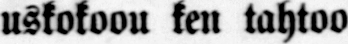uskokoou ken tahtoo
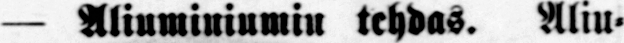— Aliumiuiumiu tehdas. Aliu-
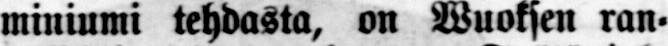miniumi tehdasta, on Wuoksen ran-
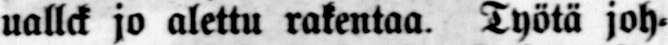uallck jo alettu rakentaa Työtä joh-
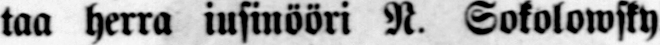taa herra insinööri N. Sokolowsky
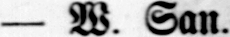— W. San.
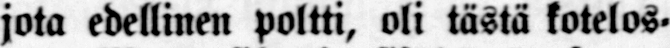jota edellinen poltti, oli tästä kotelos-
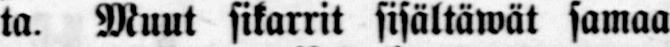ta. Muut sikarrit sisältäwät samaa
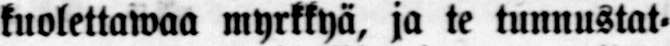kuolettawaa myrkkyä, ja te tunnustat-
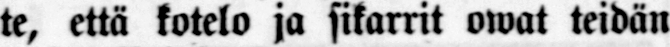te, että kotelo ja sikarrit owat teidän
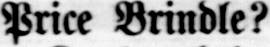Price Brindle?
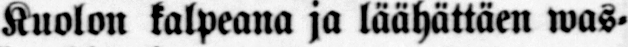Kuolon kalpeana ja läähättäen was-
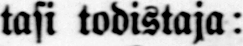tasi todistaja:
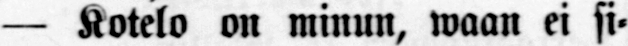— Kotelo on minun, waan ei si-
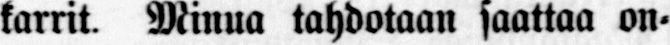karrit. Minua tahdotaan saattaa on-
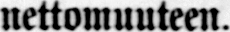nettomuuteen.
